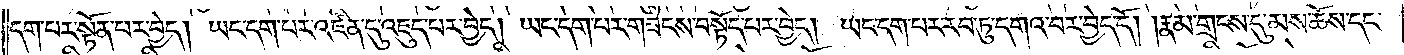དག་པར་སྟོན་པར་བྱེད། ཡང་དག་པར་འཛིན་དུ་འཇུད་པར་བྱེད། ཡང་དག་པར་གཟེངས་བསྟོད་པར་བྱེད། ཡང་དག་པར་རབ་ཏུ་དགའ་བར་བྱེད་དོ། །རྣམ་གྲངས་དུ་མས་ཆོས་དང་
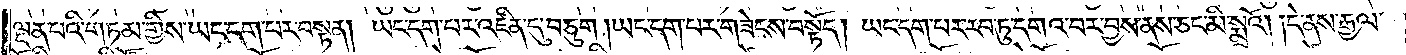ལྡན་པའི་གཏམ་གྱིས་ཡང་དག་པར་བསྟན། ཡང་དག་པར་འཛིན་དུ་བཅུག །ཡང་དག་པར་གཟེངས་བསྟོད། ཡང་དག་པར་རབ་ཏུ་དགའ་བར་བྱས་ནས་ཅང་མི་སྨྲའོ། །དེ་ནས་རྒྱལ་
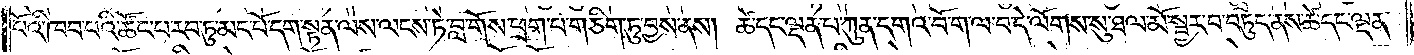པོའི་ཁབ་པའི་ཚོང་པ་རབ་ཏུ་མང་པོ་དག་སྟན་ལས་ལངས་ཏེ་བླ་གོས་ཕྲག་པ་གཅིག་ཏུ་བྱས་ནས། ཚེ་དང་ལྡན་པ་ཀུན་དགའ་བོ་ག་ལ་བ་དེ་ལོགས་སུ་ཐལ་མོ་སྦྱར་བ་བཏུད་ནས་ཚེ་དང་ལྡན་
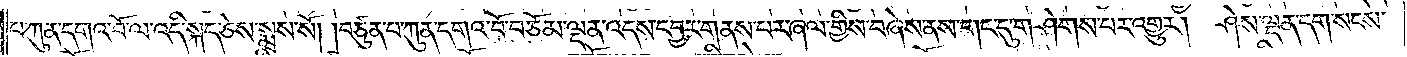པ་ཀུན་དགའ་བོ་ལ་འདི་སྐད་ཅེས་སྨྲས་སོ། །བཙུན་པ་ཀུན་དགའ་བོ་བཅོམ་ལྡན་འདས་དབྱར་གནས་པར་ཞལ་གྱིས་བཞེས་ནས་གང་དུ་གཤེགས་པར་འགྱུར། ཤེས་ལྡན་དག་སངས་
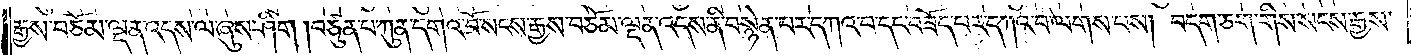རྒྱས་བཅོམ་ལྡན་འདས་ལ་ཞུས་ཤིག །བཙུན་པ་ཀུན་དགའ་བོ་སངས་རྒྱས་བཅོམ་ལྡན་འདས་ནི་བསྙེན་པར་དགའ་བ་དང་བཟོད་པར་དཀའ་བ་ལགས་པས། བདག་ཅག་གིས་སངས་རྒྱས་
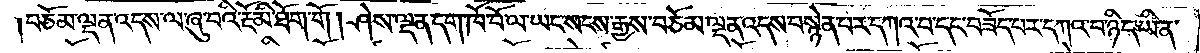།བཅོམ་ལྡན་འདས་ལ་ཞུ་བའི་རྔོ་མི་ཐོག་གོ །ཤེས་ལྡན་དག་ཁོ་བོ་ལ་ཡང་སངས་རྒྱས་བཅོམ་ལྡན་འདས་བསྙེན་པར་དཀའ་བ་དང་བཟོད་པར་དཀའ་བ་ཉིད་ཡིན་
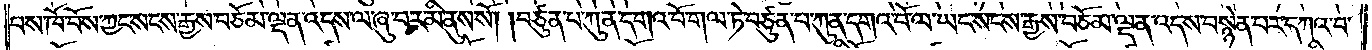པས་ཁོ་བོས་ཀྱང་སངས་རྒྱས་བཅོམ་ལྡན་འདས་ལ་ཞུ་བར་མི་ནུས་སོ། །བཙུན་པ་ཀུན་དགའ་བོ་གལ་ཏེ་བཙུན་པ་ཀུན་དགའ་བོ་ལ་ཡང་སངས་རྒྱས་བཅོམ་ལྡན་འདས་བསྙེན་པར་དཀའ་བ་
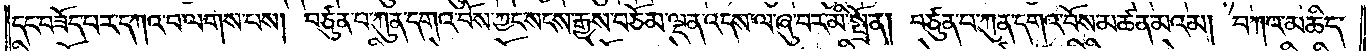དང་བཟོད་པར་དཀའ་བ་ལགས་པས། བཙུན་པ་ཀུན་དགའ་བོས་ཀྱང་སངས་རྒྱས་བཅོམ་ལྡན་འདས་ལ་ཞུ་བར་མི་སྤྲོ་ན། བཙུན་པ་ཀུན་དགའ་བོས་མཚན་མའམ། བཀའ་མཆིད་
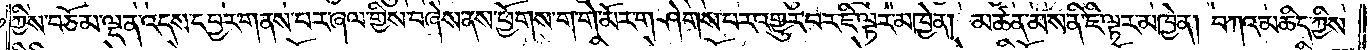ཀྱིས་བཅོམ་ལྡན་འདས་དབྱར་གནས་པར་ཞལ་གྱིས་བཞེས་ནས་ཕྱོགས་ག་གེ་མོར་གཤེགས་པར་འགྱུར་བར་ཇི་ལྟར་མཁྱེན། མཚན་མས་ནི་ཇི་ལྟར་མཁྱེན། བཀའ་མཆིད་ཀྱིས་
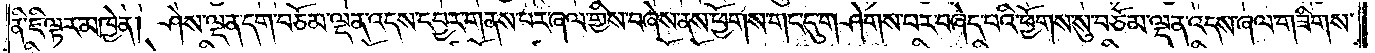ནི་ཇི་ལྟར་མཁྱེན། ཤེས་ལྡན་དག་བཅོམ་ལྡན་འདས་དབྱར་གནས་པར་ཞལ་གྱིས་བཞེས་ནས་ཕྱོགས་གང་དུ་གཤེགས་པར་བཞེད་པའི་ཕྱོགས་སུ་བཅོམ་ལྡན་འདས་ཞལ་གཟིགས་
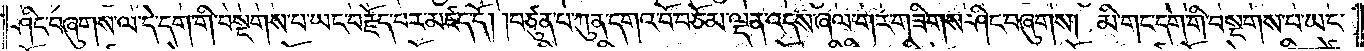ཤིང་བཞུགས་ལ་དེ་དག་གི་བསྔགས་པ་ཡང་བརྗོད་པར་མཛད་དོ། །བཙུན་པ་ཀུན་དགའ་བོ་བཅོམ་ལྡན་འདས་ཞལ་གར་གཟིགས་ཤིང་བཞུགས། མི་གང་དག་གི་བསྔགས་པ་ཡང་
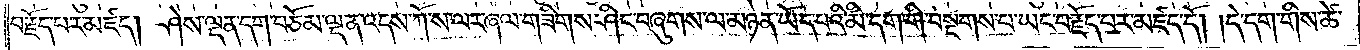བརྗོད་པར་མཛད། ཤེས་ལྡན་དག་བཅོམ་ལྡན་འདས་ཀོ་ས་ལར་ཞལ་གཟིགས་ཤིང་བཞུགས་ལ་མཉན་ཡོད་པའི་མི་དག་གི་བསྔགས་པ་ཡང་བརྗོད་པར་མཛད་དོ། །དེ་དག་གིས་ཚེ་
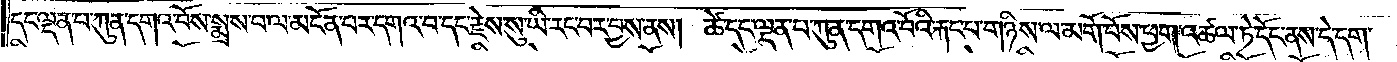དང་ལྡན་པ་ཀུན་དགའ་བོས་སྨྲས་པ་ལ་མངོན་པར་དགའ་བ་དང་རྗེས་སུ་ཡི་རང་བར་བྱས་ནས། ཚེ་དང་ལྡན་པ་ཀུན་དགའ་བོའི་རྐང་པ་གཉིས་ལ་མགོ་བོས་ཕྱག་འཚལ་ཏེ་དོང་ནས་དེ་དག་
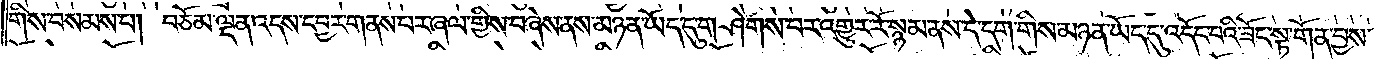གིས་བསམས་པ། བཅོམ་ལྡན་འདས་དབྱར་གནས་པར་ཞལ་གྱིས་བཞེས་ནས་མཉན་ཡོད་དུ་གཤེགས་པར་འགྱུར་རོ་སྙམ་ནས་དེ་དག་གིས་མཉན་ཡོད་དུ་འདོང་བའི་ཟོང་སྟ་གོན་བྱས་
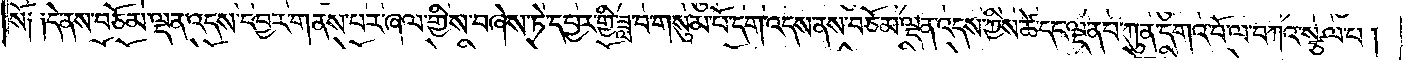སོ༑ ༑དེ་ནས་བཅོམ་ལྡན་འདས་དབྱར་གནས་པར་ཞལ་གྱིས་བཞེས་ཏེ་དབྱར་གྱི་ཟླ་བ་གསུམ་པོ་དག་འདས་ནས་བཅོམ་ལྡན་འདས་ཀྱིས་ཚེ་དང་ལྡན་པ་ཀུན་དགའ་བོ་ལ་བཀའ་སྩལ་པ།
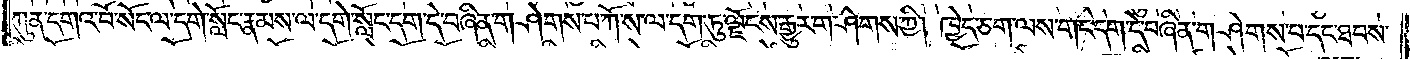ཀུན་དགའ་བོ་སོང་ལ་དགེ་སློང་རྣམས་ལ་དགེ་སློང་དག་དེ་བཞིན་གཤེགས་པ་ཀོ་ས་ལ་དག་ཏུ་ལྗོངས་རྒྱུར་གཤེགས་ཀྱི། ཁྱེད་ཅག་ལས་གང་དག་དེ་བཞིན་གཤེགས་པ་དང་ཐབས་
